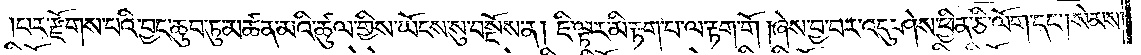པར་རྫོགས་པའི་བྱང་ཆུབ་ཏུ་མཚན་མའི་ཚུལ་གྱིས་ཡོངས་སུ་བསྔོས་ན། ཇི་ལྟར་མི་རྟག་པ་ལ་རྟག་གོ། ཞེས་བྱ་བར་འདུ་ཤེས་ཕྱིན་ཅི་ལོག་དང༌། སེམས་
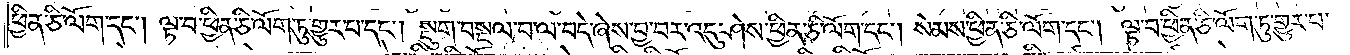ཕྱིན་ཅི་ལོག་དང༌། ལྟ་བ་ཕྱིན་ཅི་ལོག་ཏུ་གྱུར་པ་དང༌། སྡུག་བསྔལ་བ་ལ་བདེ་ཞེས་བྱ་བར་འདུ་ཤེས་ཕྱིན་ཅི་ལོག་དང༌། སེམས་ཕྱིན་ཅི་ལོག་དང༌། ལྟ་བ་ཕྱིན་ཅི་ལོག་ཏུ་གྱུར་པ་
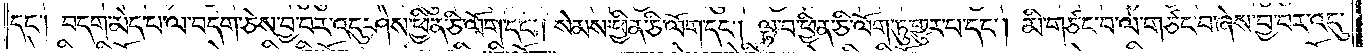དང༌། བདག་མེད་པ་ལ་བདག་ཅེས་བྱ་བར་འདུ་ཤེས་ཕྱིན་ཅི་ལོག་དང༌། སེམས་ཕྱིན་ཅི་ལོག་དང༌། ལྟ་བ་ཕྱིན་ཅི་ལོག་ཏུ་གྱུར་པ་དང༌། མི་གཙང་བ་ལ་གཙང་བ་ཞེས་བྱ་བར་འདུ་
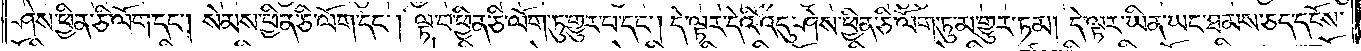ཤེས་ཕྱིན་ཅི་ལོག་དང༌། སེམས་ཕྱིན་ཅི་ལོག་དང༌། ལྟ་བ་ཕྱིན་ཅི་ལོག་ཏུ་གྱུར་པ་དང༌། དེ་ལྟར་དེའི་འདུ་ཤེས་ཕྱིན་ཅི་ལོག་ཏུ་མ་གྱུར་ཏམ། དེ་ལྟར་ཡིན་ཡང་ཐམས་ཅད་དངོས་
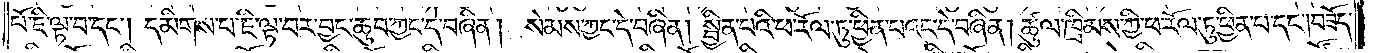པོ་ཇི་ལྟ་བ་དང༌། དམིགས་པ་ཇི་ལྟ་བར་བྱང་ཆུབ་ཀྱང་དེ་བཞིན། སེམས་ཀྱང་དེ་བཞིན། སྦྱིན་པའི་ཕ་རོལ་ཏུ་ཕྱིན་པའང་དེ་བཞིན། ཚུལ་ཁྲིམས་ཀྱི་ཕ་རོལ་ཏུ་ཕྱིན་པ་དང༌། བཟོད་
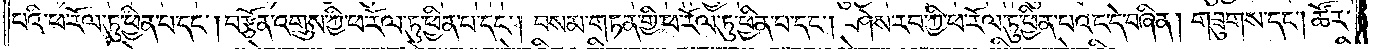པའི་ཕ་རོལ་ཏུ་ཕྱིན་པ་དང༌། བརྩོན་འགྲུས་ཀྱི་ཕ་རོལ་ཏུ་ཕྱིན་པ་དང༌། བསམ་གཏན་གྱི་ཕ་རོལ་ཏུ་ཕྱིན་པ་དང༌། ཤེས་རབ་ཀྱི་ཕ་རོལ་ཏུ་ཕྱིན་པའང་དེ་བཞིན། གཟུགས་དང༌། ཚོར་
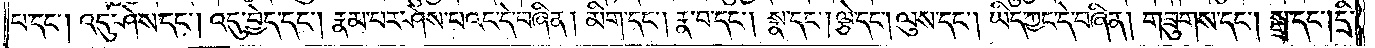པ་དང༌། འདུ་ཤེས་དང༌། འདུ་བྱེད་དང༌། རྣམ་པར་ཤེས་པའང་དེ་བཞིན། མིག་དང༌། རྣ་བ་དང༌། སྣ་དང༌། ལྕེ་དང༌། ལུས་དང༌། ཡིད་ཀྱང་དེ་བཞིན། གཟུགས་དང༌། སྒྲ་དང༌། དྲི་
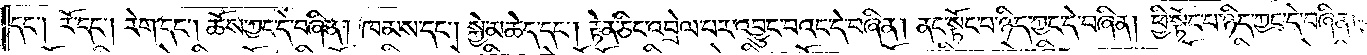དང༌། རོ་དང༌། རེག་དང༌། ཆོས་ཀྱང་དེ་བཞིན། ཁམས་དང༌། སྐྱེ་མཆེད་དང༌། རྟེན་ཅིང་འབྲེལ་བར་འབྱུང་བའང་དེ་བཞིན། ནང་སྟོང་པ་ཉིད་ཀྱང་དེ་བཞིན། ཕྱི་སྟོང་པ་ཉིད་ཀྱང་དེ་བཞིན།
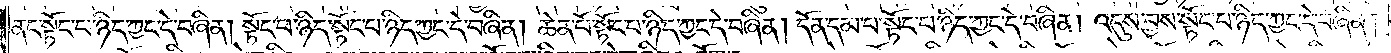ནང་སྟོང་པ་ཉིད་ཀྱང་དེ་བཞིན། སྟོང་པ་ཉིད་སྟོང་པ་ཉིད་ཀྱང་དེ་བཞིན། ཆེན་པོ་སྟོང་པ་ཉིད་ཀྱང་དེ་བཞིན། དོན་དམ་པ་སྟོང་པ་ཉིད་ཀྱང་དེ་བཞིན། འདུས་བྱས་སྟོང་པ་ཉིད་ཀྱང་དེ་བཞིན།
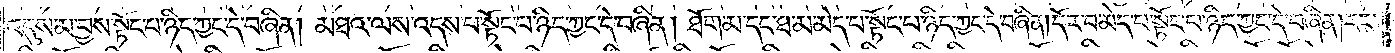འདུས་མ་བྱས་སྟོང་བ་ཉིད་ཀྱང་དེ་བཞིན། མཐའ་ལས་འདས་པ་སྟོང་པ་ཉིད་ཀྱང་དེ་བཞིན། ཐོག་མ་དང་ཐ་མ་མེད་པ་སྟོང་པ་ཉིད་ཀྱང་དེ་བཞིན། དོར་བ་མེད་པ་སྟོང་པ་ཉིད་ཀྱང་དེ་བཞིན། རང་
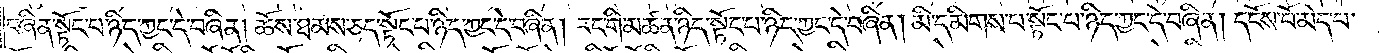བཞིན་སྟོང་པ་ཉིད་ཀྱང་དེ་བཞིན། ཆོས་ཐམས་ཅད་སྟོང་པ་ཉིད་ཀྱང་དེ་བཞིན། རང་གི་མཚན་ཉིད་སྟོང་པ་ཉིད་ཀྱང་དེ་བཞིན། མི་དམིགས་པ་སྟོང་པ་ཉིད་ཀྱང་དེ་བཞིན། དངོས་པོ་མེད་པ་
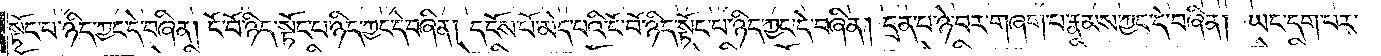སྟོང་པ་ཉིད་ཀྱང་དེ་བཞིན། ངོ་བོ་ཉིད་སྟོང་པ་ཉིད་ཀྱང་དེ་བཞིན། དངོས་པོ་མེད་པའི་ངོ་བོ་ཉིད་སྟོང་པ་ཉིད་ཀྱང་དེ་བཞིན། དྲན་པ་ཉེ་བར་གཞག་པ་རྣམས་ཀྱང་དེ་བཞིན། ཡང་དག་པར་
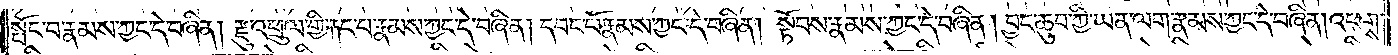སྤོང་བ་རྣམས་ཀྱང་དེ་བཞིན། རྫུ་འཕྲུལ་གྱི་རྐང་པ་རྣམས་ཀྱང་དེ་བཞིན། དབང་པོ་རྣམས་ཀྱང་དེ་བཞིན། སྟོབས་རྣམས་ཀྱང་དེ་བཞིན། བྱང་ཆུབ་ཀྱི་ཡན་ལག་རྣམས་ཀྱང་དེ་བཞིན། འཕགས་
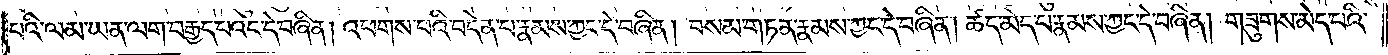པའི་ལམ་ཡན་ལག་བརྒྱད་པའང་དེ་བཞིན། འཕགས་པའི་བདེན་པ་རྣམས་ཀྱང་དེ་བཞིན། བསམ་གཏན་རྣམས་ཀྱང་དེ་བཞིན། ཚད་མེད་པ་རྣམས་ཀྱང་དེ་བཞིན། གཟུགས་མེད་པའི་
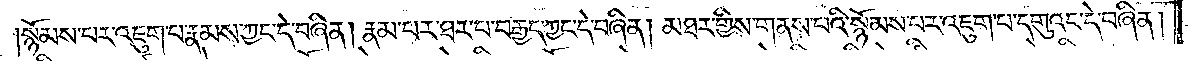སྙོམས་པར་འཇུག་པ་རྣམས་ཀྱང་དེ་བཞིན། རྣམ་པར་ཐར་པ་བརྒྱད་ཀྱང་དེ་བཞིན། མཐར་གྱིས་གནས་པའི་སྙོམས་པར་འཇུག་པ་དགུའང་དེ་བཞིན།
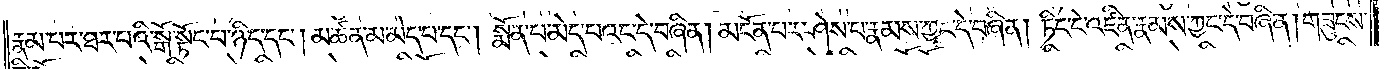རྣམ་པར་ཐར་པའི་སྒོ་སྟོང་པ་ཉིད་དང༌། མཚན་མ་མེད་པ་དང༌། སྨོན་པ་མེད་པའང་དེ་བཞིན། མངོན་པར་ཤེས་པ་རྣམས་ཀྱང་དེ་བཞིན། ཏིང་ངེ་འཛིན་རྣམས་ཀྱང་དེ་བཞིན། གཟུངས་
